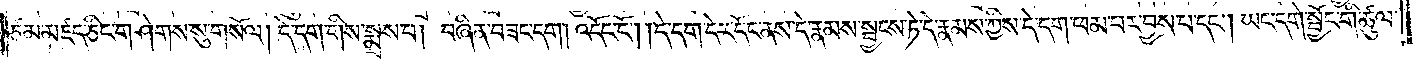ཙམ་མཛད་ཅིང་གཤེགས་སུ་གསོལ། དེ་དག་གིས་སྨྲས་པ། བཞིན་བཟང་དག། འདོང་ངོ༌། །དེ་དག་དེར་དོང་ནས་དེ་རྣམས་སྦྱངས་ཏེ་དེ་རྣམས་ཀྱིས་དེ་དག་ཕམ་པར་བྱས་པ་དང༌། ཡང་དགེ་སྦྱོང་གི་ཚུལ་
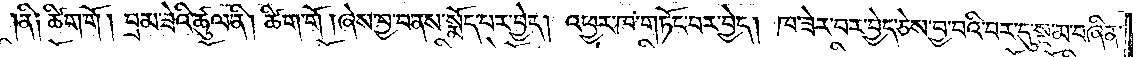ནི། ཚིག་གོ །བྲམ་ཟེའི་ཚུལ་ནི། ཚིག་གོ །ཞེས་བྱ་བ་ནས་སྨོད་པར་བྱེད། འཕྱར་ཁ་གཏོང་བར་བྱེད། ཁ་ཟེར་བར་བྱེད་ཅེས་བྱ་བའི་བར་དུ་སྔ་མ་བཞིན་
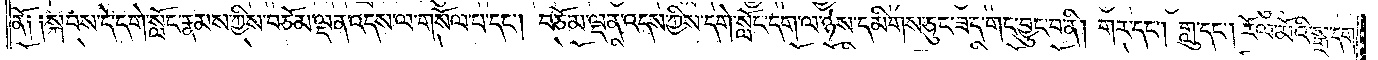ནོ༑ ༑སྐབས་དེ་དགེ་སློང་རྣམས་ཀྱིས་བཅོམ་ལྡན་འདས་ལ་གསོལ་པ་དང༌། བཅོམ་ལྡན་འདས་ཀྱིས་དགེ་སློང་དག་ལ་ཉེས་དམིགས་ཅུང་ཟད་གང་བྱུང་བ་ནི། གར་དང༌། གླུ་དང༌། རོལ་མོའི་སྒྲ་དག་
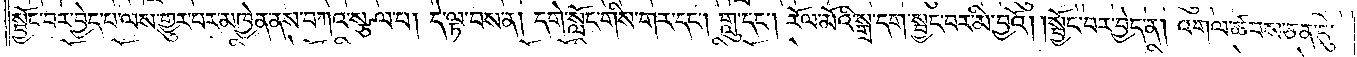སྦྱོང་བར་བྱེད་པ་ལས་གྱུར་པར་མཁྱེན་ནས་བཀའ་སྩལ་པ། དེ་ལྟ་བས་ན། དགེ་སློང་གིས་གར་དང༌། གླུ་དང༌། རོལ་མོའི་སྒྲ་དག་སྦྱང་བར་མི་བྱའོ། །སྦྱོང་བར་བྱེད་ན། འགལ་ཚབས་ཅན་དུ་
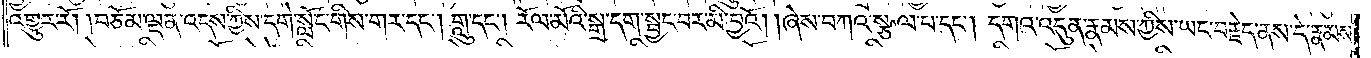འགྱུར་རོ། །བཅོམ་ལྡན་འདས་ཀྱིས་དགེ་སློང་གིས་གར་དང༌། གླུ་དང༌། རོལ་མོའི་སྒྲ་དག་སྦྱང་བར་མི་བྱའོ། །ཞེས་བཀའ་སྩལ་པ་དང༌། དགའ་འདུན་རྣམས་ཀྱིས་ཡང་བརྗེད་ནས་དེ་རྣམས་
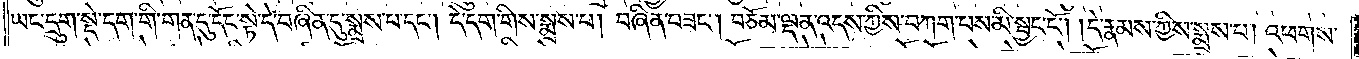ཡང་དྲུག་སྡེ་དག་གི་གན་དུ་དོང་སྟེ་དེ་བཞིན་དུ་སྨྲས་པ་དང༌། དེ་དག་གིས་སྨྲས་པ། བཞིན་བཟང༌། བཅོམ་ལྡན་འདས་ཀྱིས་བཀག་པས་མི་སྦྱང་ངོ༌། །དེ་རྣམས་ཀྱིས་སྨྲས་པ། འཕགས་
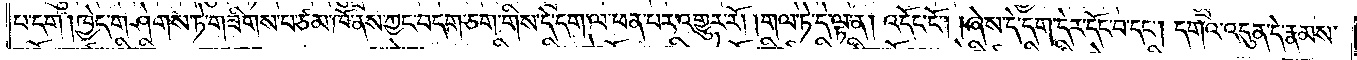པ་དག །ཁྱེད་གཤེགས་ཏེ་གཟིགས་པ་ཙམ་ཁོ་ནས་ཀྱང་བདག་ཅག་གིས་དེ་དག་ལ་ཕན་པར་འགྱུར་རོ། །གལ་ཏེ་དེ་ལྟ་ན། འདོང་ངོ༌། །ཞེས་དེ་དག་དེར་དོང་བ་དང༌། དགའ་འདུན་དེ་རྣམས་
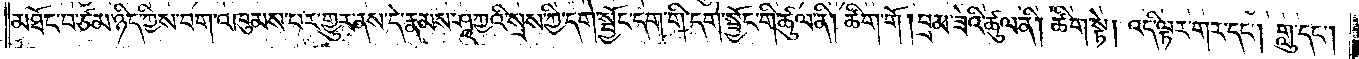མཐོང་བ་ཙམ་ཉིད་ཀྱིས་བག་འཁུམས་པར་གྱུར་ནས་དེ་རྣམས་ཤཱཀྱའི་སྲས་ཀྱི་དགེ་སྦྱོང་དག་གི་དགེ་སྦྱོང་གི་ཚུལ་ནི། ཚིག་གོ །བྲམ་ཟེའི་ཚུལ་ནི། ཚིག་སྟེ། འདི་ལྟར་གར་དང༌། གླུ་དང༌།
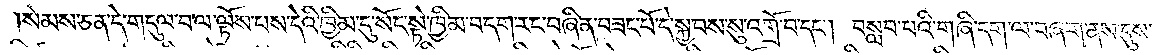སེམས་ཅན་དེ་གདུལ་བ་ལ་ལྟོས་པས་དེའི་ཁྱིམ་དུ་སོང་སྟེ་ཁྱིམ་བདག་རང་བཞིན་བཟང་པོ་དེ་སྐྱབས་སུ་འགྲོ་བ་དང༌། བསླབ་པའི་གཞི་དག་ལ་བཞག་ནས་དུས་
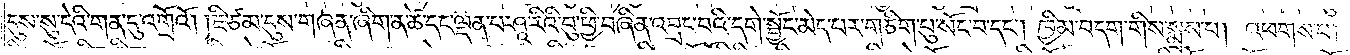དུས་སུ་དེའི་གན་དུ་འགྲོའོ། །ཇི་ཙམ་དུས་གཞན་ཞིག་ན་ཚེ་དང་ལྡན་པ་ཤཱ་རིའི་བུ་ཕྱི་བཞིན་འབྲང་བའི་དགེ་སྦྱོང་མེད་པར་གཅིག་པུ་སོང་བ་དང༌། ཁྱིམ་བདག་གིས་སྨྲས་པ། འཕགས་པ།
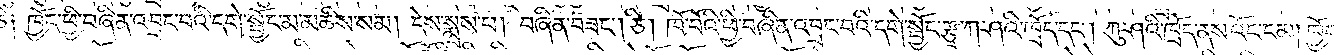ཅི༑ ཁྱོད་ཕྱི་བཞིན་འབྲང་བའི་དགེ་སྦྱོང་མ་མཆིས་སམ། དེས་སྨྲས་པ། བཞིན་བཟང༌། ཅི། ཁོ་བོའི་ཕྱི་བཞིན་འབྲང་བའི་དགེ་སྦྱོང་རྩྭ་ཀ་ཤའི་ཁྲོད་དང༌། ཀུ་ཤའི་ཁྲོད་ནས་འོང་ངམ། ཁྱོད་
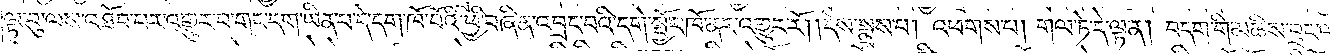ལྟ་བུ་ལས་འཐོབ་པར་འགྱུར་བ་གང་དག་ཡིན་པ་དེ་དག་ཁོ་བོའི་ཕྱི་བཞིན་འབྲང་བའི་དགེ་སྦྱོང་ཁོ་ནར་འགྱུར་རོ། །དེས་སྨྲས་པ། འཕགས་པ། གལ་ཏེ་དེ་ལྟ་ན། བདག་གི་མཆིས་བྲང་ལ་
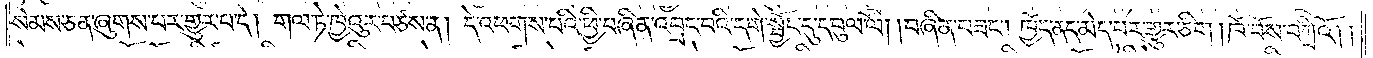སེམས་ཅན་ཞུགས་པར་གྱུར་པ་དེ། གལ་ཏེ་ཁྱེའུར་བཙས་ན། དེ་འཕགས་པའི་ཕྱི་བཞིན་འབྲང་བའི་དགེ་སྦྱོང་དུ་དབུལ་ལོ། །བཞིན་བཟང༌། ཁྱོད་ནད་མེད་པར་གྱུར་ཅིག །ཁོ་བོས་དཀྲིའོ། །
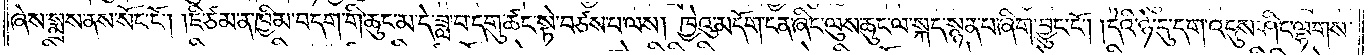ཞེས་སྨྲས་ནས་སོང་ངོ༌། །ཇི་ཙམ་ན་ཁྱིམ་བདག་གི་ཆུང་མ་དེ་ཟླ་བ་དགུ་ཚང་སྟེ་བཙས་པ་ལས། ཁྱེའུ་མདོག་ངན་ཞིང་ལུས་ཆུང་ལ་སྐད་སྙན་པ་ཞིག་བྱུང་ངོ༌། །དེའི་ཉེ་དུ་དག་འདུས་ཤིང་ལྷགས་
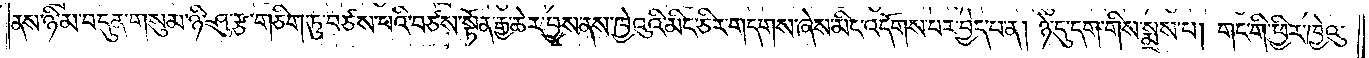ནས་ཉི་མ་བདུན་གསུམ་ཉི་ཤུ་རྩ་གཅིག་ཏུ་བཙས་པའི་བཙས་སྟོན་རྒྱ་ཆེར་བྱས་ནས་ཁྱེའུའི་མིང་ཅིར་གདགས་ཞེས་མིང་འདོགས་པར་བྱེད་པ་ན། ཉེ་དུ་དག་གིས་སྨྲས་པ། གང་གི་ཕྱིར་ཁྱེའུ་
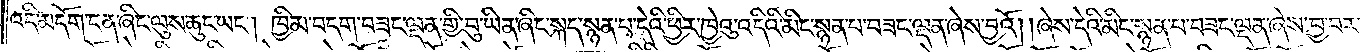འདི་མདོག་ངན་ཞིང་ལུས་ཆུང་ཡང༌། ཁྱིམ་བདག་བཟང་ལྡན་གྱི་བུ་ཡིན་ཞིང་སྐད་སྙན་པ་དེའི་ཕྱིར་ཁྱེའུ་འདིའི་མིང་སྙན་པ་བཟང་ལྡན་ཞེས་བྱའོ། །ཞེས་དེའི་མིང་སྙན་པ་བཟང་ལྡན་ཞེས་བྱ་བར་
